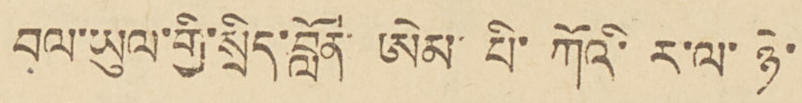བལ་ཡུལ་གྱི་སྲིད་བློན་ ཨེམ་པི་ཀོའི་ར་ལ་ཉེ་
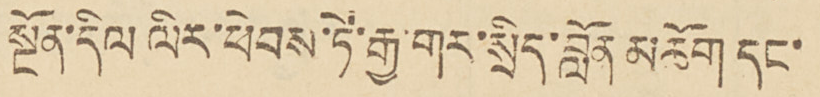སྔོན་དིལ ལིར་ཕེབས་ཏེ་རྒྱ་གར་སྲིད་བློན མཆོག དང་
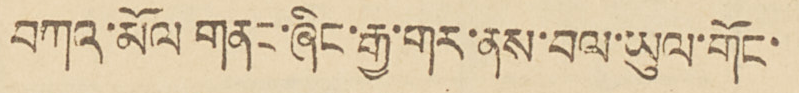བཀའ་མོལ གནང་ཞིང་རྒྱ་གར་ནས་བལ་ཡུལ་གོང་
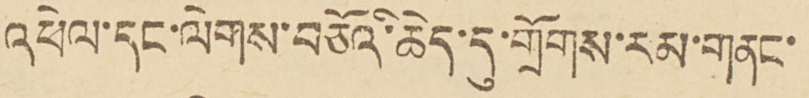འཕེལ་དང་ལེགས་བཅོའི་ཆེད་དུ་གྲོགས་རམ་གནང་
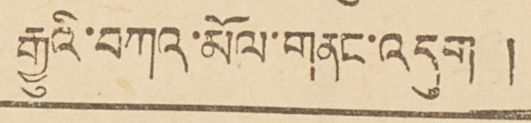རྒྱུའི་བཀའ་མོལ་གནང་འདུག །
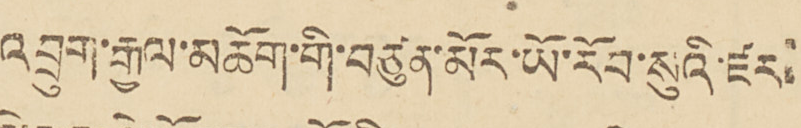འབྲུག་རྒྱལ་མཆོག་གི་བཙུན་མོར་ཡོ་རོབ་སུའི་རྫར་
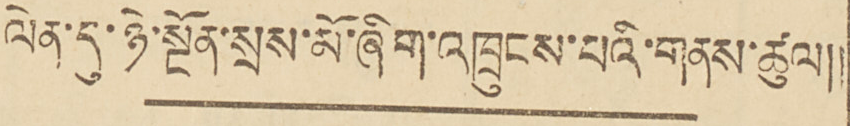ལེན་དུ་ཉེ་སྔོན་སྲས་མོ་ཞིག་འཁྲུངས་པའི་གནས་ཚུལ།།
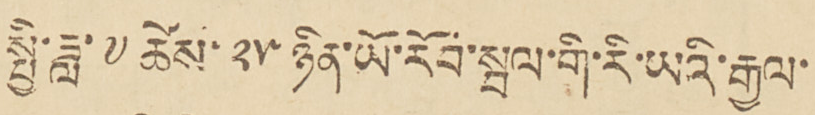སྤྱི་ཟླ་ ༧ ཚེས་ ༢༥ ཨོ་རོབ་སྦལ་གི་རི་ཡའི་རྒྱལ་
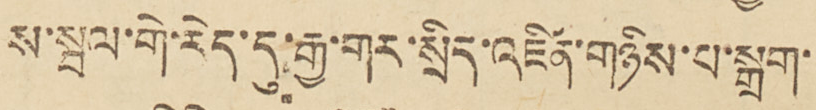ས་སྦལ་གི་རེད་དུ་རྒྱ་གར་སྲིད་འཛིན་གཉིས་པ་སྒྲག་
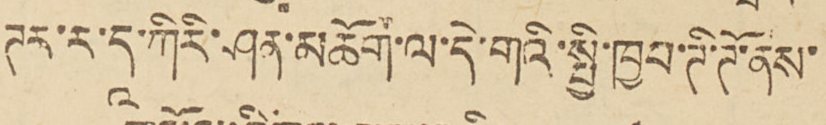ཊར་ར་དྰ་ད་ཀིརི་ཤན་མཆོག་ལ་དེ་གའི་སྤྱི་ཁྱབ་ཊི་ཊོ་ནས་
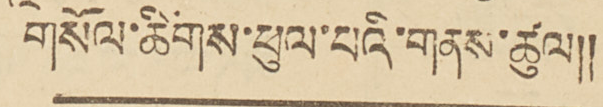གསོལ་ཚིགས་ཕུལ་པའི་གནས་ཚུལ།།
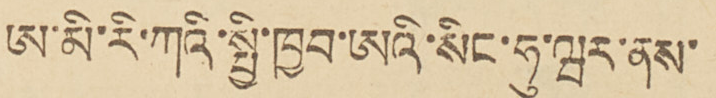ཨ་མི་རི་ཀའི་སྤྱི་ཁྱབ་ཨའི་སིང་ཧུ་ཝར་ནས་
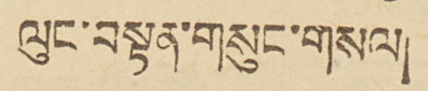ལུང་བསྟན་གསུང་གསལ།
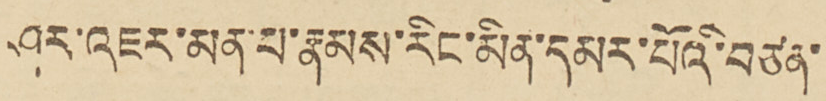ཤར་འཇར་མན་པ་རྣམས་རིང་མིན་དམར་པོའི་བཙན་
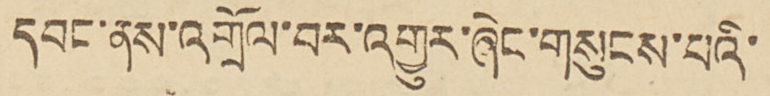དབང་ནས་འགྲོལ་བར་འགྱུར་ཞེང་གསུངས་པའི་
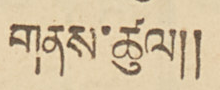གནས་ཚུལ།།
